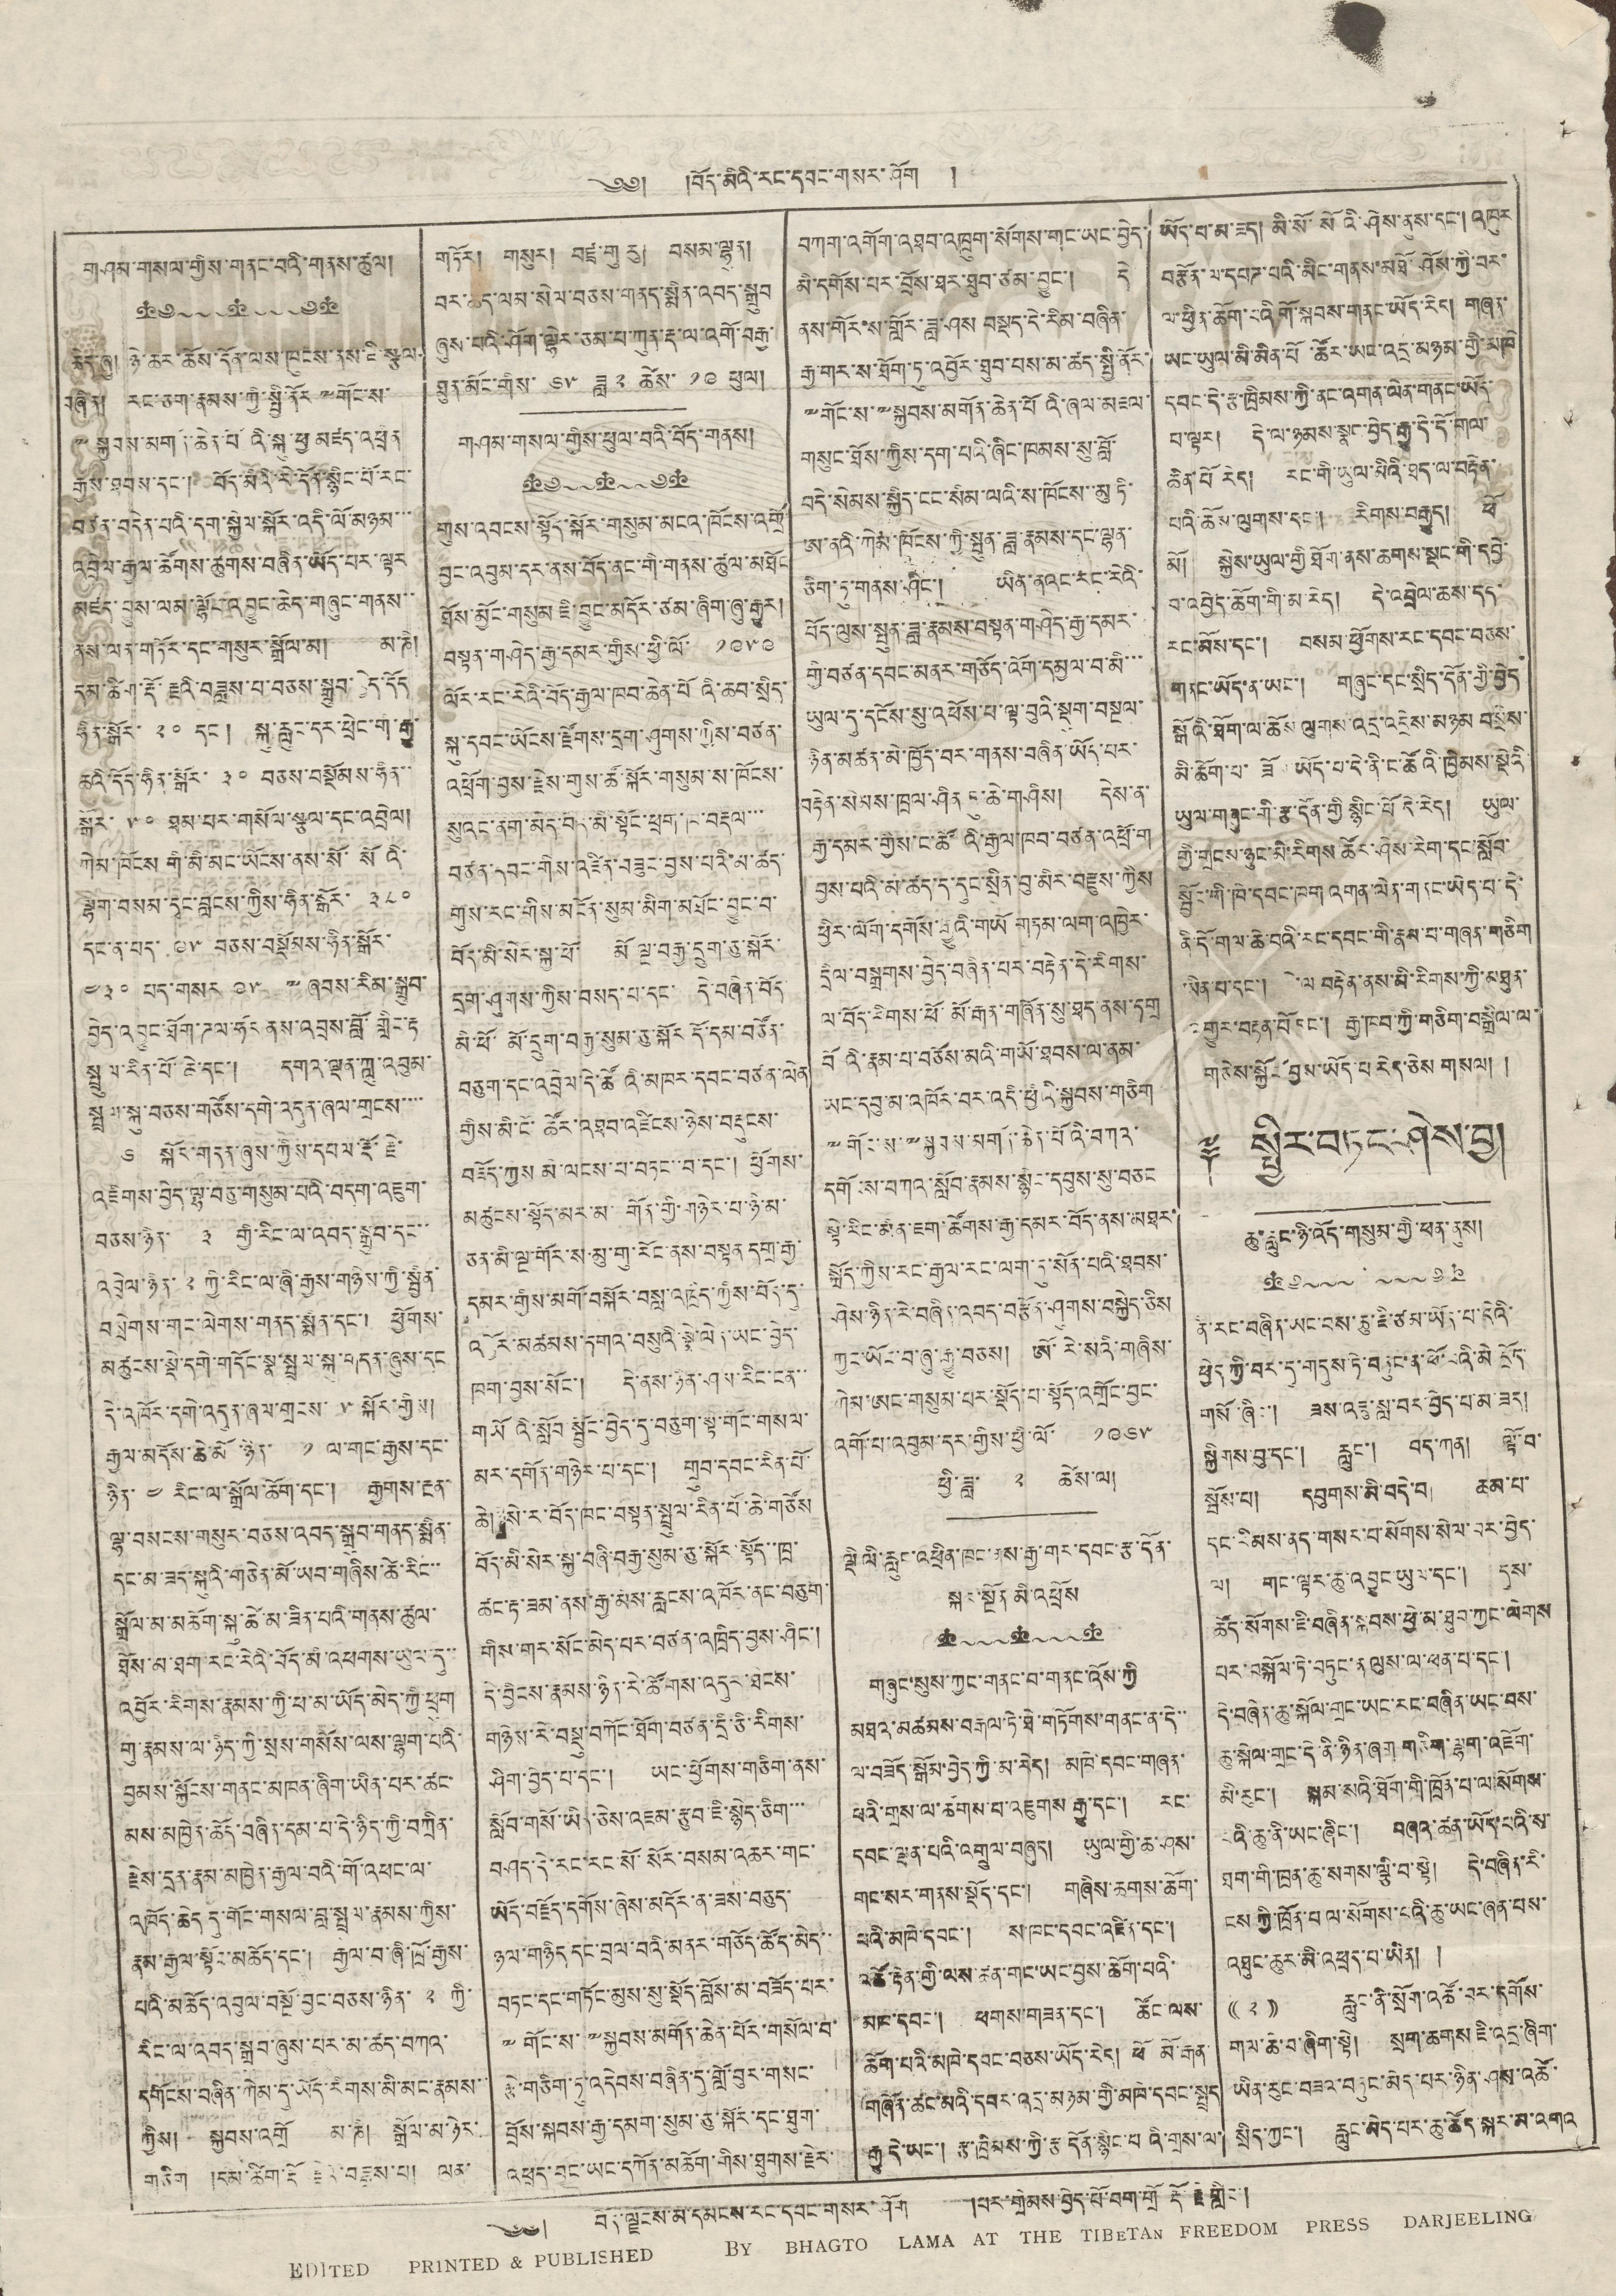༄༅། །བོད་མིའི་རང་དབང་གསར་ཤོག །
གཤམ་གསལ་གྱིས་གནང་བའི་གནས་ཚུལ།
ཆེད་ཞུ། ཉེ་ཆར་ཆོས་དོན་ལས་ཁུངས་ན་སྗི་སྩལ་
བཞིན། རང་ཅག་རྣམས་ཀྱི་སྤྱི་ནོར༸གོང་ས་
༸སྐྱབས་མགོན་ཆེན་པོའི་སྐུ་ཕྱ་མཛད་འཕྲིན
རྒྱས་ཐབས་དང་། བོད་མིའི་རེ་དོན་སྙིང་པོ་རང་
བཙན་བདེན་པའི་དག་སྐྱེལ་སྐོར་འདི་ལོ་མཉམ་་་
འབྲེལ་རྒྱལ་ཚོགས་ཚུགས་བཞིན་ཡོད་པར་ལྟར
མཛད་བྱུས་ལམ་ལྷོང་འབྱུང་ཆེད་གཞུང་གནས་་
ནས་ལན་གཏིར་དང་གསུར་སྒྲོལ་མ། མ་ཎི།
དམ་ཚིག་རྡོ་རྗའི་བཟླས་པ་བཅས་སྒྲུབ་བྱེད་དོད
ཧིན་སྒོར་ ༢༠ དང་། སྐུ་རླུང་དར་ཕྲེང་གི་རྒྱུ་
ཆའི་དོད་ཧིན་སྒོར་ ༣༠ བཅས་བསྡོམས་ཧིན་་
སྒོར་ ༥༠ ཐམ་པར་གསོལ་སྩལ་དང་འབྲེལ།
ཀེམ་ཁོངས གི་མི་མང་ཡོངས་ནས་སོ་ སོ འི་
ལྷག་བསམ་དྭང་བླངས་ཀྱིས་ཧོན་སྒོར་ ༣༨༠
དང་ན་པད་ ༩༥ བཅས་བསྡོམས་ཧིན་སྒོར་
༤༣༠ པད་གསར ༩༥ ༸ཞབས་རིམ་སྒྲུབ་
བྱེད་འབྱུང་ཐོག་ཌལ་ཧོར་ནས་འབྲས་བློ་གླིང་རྟ་
སྤྲུལ་རིན་པོ་ཆེ་དང་། དགའ་ལྡན་ཀླུ་འབུམ་
སྤྲལ་སྐུ་བཅས་གཙོས་དགེ་འདུན་ཞལ་གྲངས་་་་
༦ སྐོར་གདན་ཞུས་ཀྱིས་དཔལ་རྡོ་རྗེ་
འཇིགས་བྱེད་ལྷ་བཅུ་གསུམ་པའི་བདག་འཇུག་
བཅས་ཉིན་ ༣ གྱི་རིང་ལ་འབད་སྒྲུབ་དང་་
འབྲེལ་ཉིན་ ༢ ཀྱི་རིང་ལ་ཞི་རྒྱས་གཉིས་ཀྱི་སྦྱིན་
བསྲེགས་གང་ལེགས་གནད་སྨིན་དང་། ཕྱོགས་
མཚུངས་སྡེ་དགེ་གདོངས་སྣ་སྤྲལ་སྐུ་གདན་ཞུས་དང
དེ་འཁོར་དགེ་འདུན་ཞལ་གྲངས་ ༥ སྐོར་གྱིས།
རྒྱལ་མདོས་ཆེ་མོ ་ཉིན་ ༡ ལ་གང་རྒྱས་དང་
ཉིན་ ༤ རིང་ལ་སྒྲོལ་ཆོག་དང་། རྒྱགས་རྔན་
ལྷ་བསངས་གསུར་བཅས་འབད་སྒྲུབ་གནད་སྨིན་
དང་མ་ཟད་སྐུའི་གཅེན་པོ་ཡབ་གཞིས་ཚེ་རིང་་
སྒྲོན་མ་མཆོག་སྐུ་ཚེ་མ་ཟིན་པའི་གནས་ཚུལ་
ཐོམ་མ་ཐག་རང་རེའི་བོད་མི་འཕགས་ཡུལ་དུ་་
འབྱོར་རིགས་རྣམས་ཀྱི་ཕ་མ་ཡོད་མེད་ཀྱི་ཕྲུག
གུ་རྣམས་ལ་ཉིད་ཀྱི་སྲས་གསོས་ལས་ལྷག་པའི་
བྱམས་སྐྱོངས་གནང་མཁན་ཞིག་ཡིན་པར་ཚང་
མས་མཁྱེན་ཆོད་བཞིན་དམ་པ་དེ་ཉིད་ཀྱི་བཀྲིན་
རྗེས་དྲན་རྣམ་མཁྱེན་རྒྱལ་བའི་གོ་འཕང་ལ་
འཁོད་ཆེད དུ་གོང་གསལ་བླ་སྤྲལ་རྣམས་ཀྱིས་
རྣམ་རྒྱལ་སྟོང་མཆོད་དང་། རྒྱལ་བ་ཞི་ཁྲོ་རྒྱས་
པའི་མཆོད་འབུལ་བསྔོ་བྱང་བཅས་ཉིན་ ༢ ཀྱི་
རིང་ལ་འབད་སྒྲབ་ཞུས་པར་མ་ཚད་བཀའ་
དངོངས་བཞིན་ཀེམ་དུ་ཡོད་རིགས་མི་མང་རྣམས་་
ཀྱིས། སྐྱབས་འགྲོ མ་ཎི། སྒྲོན་མ་ཉེར་
གཅིག །དམ་ཚིག་རྡོ རྗེའི་བཟླས་པ། ལན་
གཏོར། གསུར། བཛྲ་གུ རུ། བསམ་ལྷུན།
བར་ཆད་ལམ་སེལ་བཅས་གནད་སྨིན་འབད་སྒྲུབ
ཞུས་པའི་ཤོད་ལྷེར་ཅམ་པ་ཀུན་རྡ་ལ་འགོ་བརྒྱ་
ཐུན་མོང་གིས་ ༦༥ ཟླ ༢ ཚེས་ ༡༩ ཕུལ།
གཤམ་གསལ་གྱིས་ཕུལ་བའི་བོད་གནས།
གུས་འབངས་སྟོད་སྐོར་གསུམ་མངའ་ཁོངས་འགྲོ
བྱང་འབུམ་དར་ནས་བོད་ནང་གི་གནས་ཚུལ་མཐོང
ཐོས་མྱོང་གསུམ་ཇི་བྱུང་མདོར་ཙམ་ཞིག་ཞུ་རྒྱུར།
བསྟན་གཤེད་རྒྱ་དམར་གྱིས་ཕྱི་ལོ་ ༡༩༥༩
ལོར་རང་རེའི་བོད་རྒྱལ་ཁབ་ཆེན་པོ འི་ཆབ་སྲིད་
སྐུ་དབང་ཡོངས་རྫོགས་དྲག་ཤུགས་ཀྱིས་བཙན་
འཕྲོག་བྱས་རྗེས་གུས་ཚོ་སྐོར་གསུམ་ས་ཁོངས་
སུའང་ནག་མེད་བོད་མི་སྟོང་ཕྲག་ཁ་བརྡལ་་་
བཙན་དབང་གིས་འཛིན་བཟུང་བྱས་པའི་མ་ཚད་
གུས་རང་གིས་མངོན་སུམ་མིག་མཐོང་བྱུང་བ་
བོད་མི་སེར་སྐྱ་ཕོ་ མོ་ལྔ་བརྒྱ་དྲུག་ཅུ་སྐོར་
དྲག་ཤུགས་ཀྱིས་བསད་པ་དང་ དེ་བཞིན་བོད
མི་ཕོ་ མོ་དྲུག་བརྒྱ་སུམ་ཅུ་སྐོར དོ་དམ་བཙོན་
བཅུག་དང་འབྲེལ་དེ་ཚོ འི་འཁར་དབང་བཙན་ལེན
གྱིས་མི་ངོ་ ཚོར་འཐབ་འཛིངས་ཉེས་བརྡུངས་
བཇོད་ཀྱིས་མེ་ལངས་པ་བཏང་་བ་དང། ཕྱོགས་
མཚུངས་སྟོད་མར་མ་ གོན་གྱི་གཉེར་པ་ཉི་མ་
ཅན་མི་ལྔ་གོར་ས་མུ་གུ་རོང་ནས་བསྟན དགྲ་རྒྱ་
དམར་གྱིས་མགོ་བསྐོར་བསླ་འཁྲིད་ཀྱིས་བོད་དུ་
འབྱོར་མཚམས་དགའ་བསུའི་སྣེ་ལེན་ཡང་བྱེད་
ཁག་བྱས་སོང་། དེ་ནས་ཉིན་ཤས་རིང་ངན་་
གཡོའི་སློབ་སྦྱོང་བྱེད་དུ་བཅུག་སྟེ་གོང་གསལ་
མར་དགོན་གཉེར་པ་དང་། གྲུབ་དབང་རིན་པོ་
ཆེ། སེ་ར་བོད་ཁང་བསྟན་སྤྲུལ་རིན་པོ་ཆེ་གཙོས
བོད་མི་སེར་སྐྱ་བཞི་བརྒྱ་སུམ་ཅུ་སྐོར་སྟོད་་ཁྲ་
ཚང་རྟ་ཟམ་ནས་རྒྱ་མིས་རླངས་འཁོར་ནང་བཅུག་
གིས་གར་སོང་མེད་པར་བཙན་འཁྲིད་བྱས་ཤིང་།
དེ་བྱིངས་རྣམས་ཉིན་རེ་ཚོགས་འདུར་ཐེངས་
གཉིས་རེ་བསྡུ་བཀོང་ཐོག་བཙན་དྲི་ཅི་རིགས་
ཤིག་བྱེད་པ་དང་། ཡང་ཕྱོགས་གཅིག་ནས་
སློབ་གསོ་ཡིན་ཅེས་འཇམ་རྩུབ་ཇི་སྙེད་ཅིག་་་
བཤད་ཏེ་རང་རང་སོ་སོར་བསམ་འཆར་གང་
ཡོད་བརྗོད་དགོས་ཞེས་མདོར་ན་ཟས་བཅུད་
ཉལ་གཉིད་དང་བྲལ་བའི་མནར་གཅོད་ཚོད་མེད་་
བཏང་དང་གཏོང་མུས་སུ་སྡོད་བློས་མ་བཟོད་པར་
༸གོང་ས་༸སྐྱབས་མགོན་ཆེན་པོར་གསོལ་བ་
རྩེ་གཅིག་ཏུ་འདེབས་བཞིན་གློ་བུར་གསང་
བྲོས་སྐབས་རྒྱ་དམག་སུམ་ཅུ་སྐོར་དང་ཐུག་
འཕྲད་བྱང་ཡང་དཀོན་མཆོག་གིས་ཐུགས་རྗེར་
བཀག་འགོག་འཐབ་འཁྲུག་སོགས་གང་ཡང་བྱེད་
མི་དགོས་པར་བྲོས་ཐར་ཐུབ་ཙམ་བྱུང་། དེ
ནས་གོར་ས་གློར་ཟླ་ཤས བསྡད་དེ་རིམ་བཞིན་
རྒྱ་གར་ས་ཐོག་ཏུ་འབྱོར་ཐུབ་པས་མ་ཚད་སྤྱི་ནོར་
༸གོང་ས་༸སྐྱབས་མགོན་ཆེན་པོའི་ཞལ་མཇལ་
གསུང་ཐོས་ཀྱིས་དག་པའི་ཞིང་ཁམས་སུ་བློ་
བདེ་སེམས་སྐྱིད་ངང་སིམ་ལའི་ས་ཁོངས་་མུ་ཏི་
ཨ་ནའི་ཀེམ་ཁོངས་ཀྱི་སྤུན་ཟླ་རྣམས་དང་ལྷན་
ཅིག་ཏུ་གནས་ཤིང་། ཡིན་ནའང་རང་རེའི་
བོད་ལུས་སྤུན་ཟླ་རྣམས་བསྟན་གཤེད་རྒྱ་དམར་
གྱི་བཙན་དབང་མནར་གཅོད་འོག་དམྱལ་བ་མི་་་
ཡུལ་དུ་དངོས་སུ་འཕོས་པ་ལྟ་བུའི་སྡུག་བསྔལ་
ཉིན་མཚན་མེ་ཁྱོད་བར་གནས་བཞིན་ཡོད་པར་
བརྟེན་སེམས་ཁྲལ་ཤིན་ཏུ་ཆེ་གཤིས། དེས་ན་
རྒྱ་དམར་གྱིས་ང་ཚོ འི་རྒྱལ་ཁབ་བཙན་འཕྲོ་ག
བྱས་པའི་མ་ཚད་ད་དུང་སྲིན་བུ་མིར་བརྫུས་ཀྱིས
ཕྱིར་ལོག་དགོས་རྒྱུའི་གཡི གཏམ་ལག་འཁྱེར་
དྲིལ་བསྒྲགས་བྱེད་བཞིན་པར་བརྟེན་དེ་རིགས་
ལ་བོད་རིགས་ཕོ་ མོ་རྒན་གཞོན་སུ་ཐད་ནས་དགྲ
བོ འི་རྣམ་པ་བཅོས་མའི་གཡོ་ཐབས་ལ་ནམ་
ཡང་དབུ་མ་འཁོར་བར་འདི་ཕྱིའི་སྐྱབས་གཅིག
༸གོང་ས་༸སྐྱབས་མགོན་ཆེན་པོའི་བཀའ་
དགོངས་བཀའ་སློབ་རྣམས་སྙིང་དབུས་སུ་བཅང
སྟེ་རིང་མིན་ཇག་ཚོགས་རྒྱ་དམར་བོད་ནས་མཐར་
སྐྲོད་ཀྱིས་རང་རྒྱལ་རང་ལག་ཏུ་སོན་པའི་ཐབས་
ཤེས་ཉིན་རེ་བཞིན་འབད་བརྩོན་ཤུགས་བསྐྱེད་ཅིས
ཀྱང་ཡོང་བ་ཞུ་རྒྱུ་བཅས། ཨོ་རེ་སའི་གཞིས་
ཀེམ་ཨང་གསུམ་པར་སྡོད་པ་སྟོད་འགྲོང་བྱང་
འགོ་པ་འབུམ་དར་གྱིས་ཕྱི་ལོ ༡༩༦༥
ཕྱི་ཟླ་ ༢ ཚེས་ལ།
ལྡི ལི་རླུང་འཕྲིན་ཁང་ནས་རྒྱ་གར་དབང་རྩ་དོན་
སྐོར་སྔོན་མི་འཕྲོས
གཞུང་སུས་ཀྱང་གནང་བ་གནང་འོས་ཀྱི
མཐའ་མཚམས་བརྒལ་ཏེ་ཐེ་གཏོགས་གནང་ན་དེ་་
ལ་བཟོད་སྒོམ་བྱེད་ཀྱི་མ་རེད། མཁེ་དབང་གཞན་
པའི་གྲས་ལ་ཚགས་པ་འཇུགས རྒྱུ་དང་། རང་
དབང་ལྡན་པའི་འགྲུལ་བཞུད། ཡུལ་གྱི་ཆ་ཤས་
གང་སར་གནས་སྡོད་དང་། གཞིས་ཆགས་ཆོག་
པའི་མཁེ་དབང་། ས་ཁང་དབང་འཛིན་དང་།
འཚོ་རྟེན་གྱི་ལས་ཚན་གང་ཡང་བྱས་ཆོག་པའི་
མཁ་དབང་། ཕགས་གཟན་དང། ཚོང་ལས་
ཆོག་པའི་མཁེ་དབང་བཅས་ཡོད་རེད། ཕོ མོ་རྒན་
གཞོན་ཚང་མའི་དབར་འདྲ་མཉམ་གྱི་མཁེ་དབང་སྤྲད་
རྒྱུ་དེ་ཡང་། རྩ་ཁྲིམས་ཀྱི་རྩ དོན་སྙིང་པའི་གྲས་ལ་
ཡོད་པ་མ་ཟད། མི་སོ་སོའི་ཤེས་ནུས་དང་། འཁུར
བརྩོན་ལ་དཔཌ་པའི་མིང་གནས་མཐོ་ཤོས་ཀྱི་ཅར་
ལ་ཕྱིན་ཆོག་པའི གོ་སྐབས་གནང་ཡོད་རེད གཞན་
ཡང་ཡུལ་མི་མིན་པོ ་ཚོར་ཡང་འདྲ་མཉམ་གྱི་མཁེ
དབང་དེ་རྩ་ཁྲིམས་ཀྱི་ནང་འགན་ལེན་གནང་ཡོད་
པ་ལྟར། དེ་ལ་ཉམས་སྣང་བྱེད་རྒྱུ་དེ་དོ་གལ་
ཆེན་པོ རེད། རང་གི་ཡུལ་མིའི་ཐད་ལ་བརྟེན་
པའི་ཆོས་ལུགས་དང་། རིགས་བརྒྱུད། ཕོ
མོ། སྐྱེས་ཡུལ་གྱི ཐོག་ནས་ཆགས་སྡང་གི་དབྱེ་
བ་འབྱེད་ཆོག་གི་མ་རེད། དེ་འབྲེལ་ཆས་དད་
རང་མོས་དང་། བསམ་ཕྱོགས་རང་དབང་བཅས་
གནང་ཡོད་ན་ཡང་། གཞུང་དང་སྲིད་དོན་གྱི་བྱེད
སྒོའི་ཐོག་ལ་ཆོས ལུགས་འདྲ་འདྲེས་མཉམ བསྲེས་
མི་ཆོག་པ་ ཟོས་ཡོད་པ་དེ་ནི་ང་ཚོའི་ཁྱིམས་སྡེའི་
ཡུལ་གཞུང་གི་རྩ་དོན་གྱི སྙིང་པོ་དེ་རེད། ཡུལ་
གྱི་གྲངས་ཉུང་མི་རིགས་ཚོར་ཤེས་རིག་དང་སློབ་
སྦྱོང་གི་ཁེ་དབང་ཁག འགན་ལེན་གནང་ཡིད་པ་དེ་
ནི་དོ་གལ་ཆེ་བའི་རང་དབང་གི་རྣམ་པ་གཞན་གཅིག
ཡིན་པ་དང་། དེ་ལ བརྟེན་ནས་མི་རིགས་ཀྱི་མཐུན་
འགྱུར་བརྟན་པོ་དང་། རྒྱ་ཁབ་ཀྱི་གཅིག་བསྒྲིལ་ལ་
གཅེས་སྐྱོང་བྱས་ཡོད་པ་རེད་ཅེས གསལ། །
༈ སྤྱིར་བཏང་ཤེས་བྱ།
ཆུ་རླུང་ཉི་འོད་གསུམ་གྱི་ཕན་ནུས།
ནི་རང་བཞིན་ཡང་བས་ཆུ་རྗི་ཙམ་ཡོད་པ་དེའི་
ཕྱེད ཀྱི་བར་དུ་གདུས་ཏེ་བཏུང་ན་ཕོ་བའི་མེ་དྲོད་
གསོ་ཞིང་། ཟས་འཇུ་ཟླ་བར་བྱེད་པ་མ་ཟད།
སྐྱིགས་བུ་དང་། རླུང་། བད་ཀན། ལྟོ་བ་
སྤོས་པ། དབུགས་མི་བདེ་བ། ཆམ་པ་
དང་རིམས་ནད་གསར་བ་སོགས་སེལ་བར་བྱེད་
ལ། གང་ལྟར་ཆུ་འབྱུང་ཡུལ་དང་། དུས་
ཚོད་སོགས་ཇི་བཞིན་སྐབས་ཕྱེ་མ་ཐུབ་ཀྱང་ལེགས
པར་བསྐོལ་ཏེ་བཏུང་ན ལུས་ལ་ཕན་པ་དང་།
དེ་བཞིན་ཆུ་སྐོལ་གྲང་ཡང་རང་བཞིན་ཡང་བས་
ཆུ་སྐོལ་གྲང་དེ་ནི་ཉིན་ཞག གཅིག་ལྷག་འཇོག་
མི་རུང་། སྐམ་སའི་ཐོག་གི་ཁྲོན་པ་ལ་སོགས་
པའི་ཆུ་ནི་ཡང་ཞིང་། བཞའ་ཚན་ཡོད་པའི་ས་
ཐག་གི་ཁྲན་ཆུ་སགས་ལྕི་བ་སྟེ། དེ་བཞིན་རི་
ངས་ཀྱི་ཁྲོན་པ ལ་སོགས་པའི་ཆུ་ཡང་ཞན་པས་
འཐུང་ཆུར་མི་འཕྲད་པ་ཡིན། །
(( 2 )) རླུང་ནི་སྲོག་འཚོ་བར་དགོས་
གལ་ཆེ་བ་ཞིག་སྟེ། སྲག་ཆགས ཇི་འདྲ་ཞིག་
ཡིན་རུང་བཟའ་བཏུང་མེད་པར་ཉིན་ཤས་འཚོ་
སྲིད་ཀྱང་། རླུང་མེད་པར་ཆུ་ཚོད་སྐར་མ་འགའ
༄༅། བོད་ལྗོངས་མི་དམངས་རང་དབང་གསར་ཤོག །པར་གྲེམས་བྱེད་པོ་བག་གྲོ་རྡོ་རྗེ་གླིང་།
EDITED PRINTED & PUBLISHED BY BHAGTO LAMA AT THE TIBETAN FREEDOM PRESS DARJEELING
